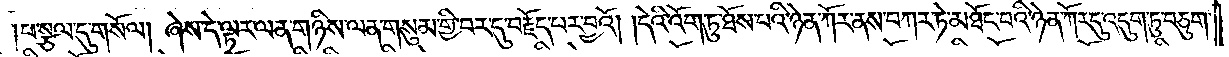པ་སྩལ་དུ་གསོལ། ཞེས་དེ་ལྟར་ལན་གཉིས་ལན་གསུམ་གྱི་བར་དུ་བརྗོད་པར་བྱའོ། །དེའི་འོག་ཏུ་ཐོས་པའི་ཉེན་ཀོར་ནས་བཀར་ཏེ་མཐོང་བའི་ཉེན་ཀོར་དུ་འདུག་ཏུ་བཅུག་
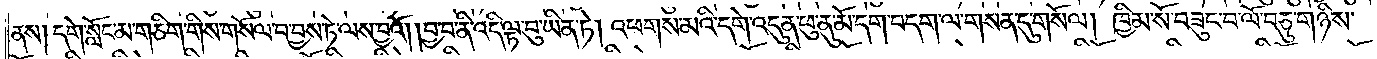ནས༑ དགེ་སློང་མ་གཅིག་གིས་གསོལ་བ་བྱས་ཏེ་ལས་བྱའོ། །བྱ་བ་ནི་འདི་ལྟ་བུ་ཡིན་ཏེ། འཕགས་མའི་དགེ་འདུན་ཕུ་ནུ་མོ་དག་བདག་ལ་གསན་དུ་གསོལ། ཁྱིམ་སོ་བཟུང་བ་ལོ་བཅུ་གཉིས་
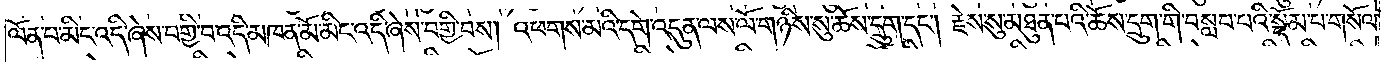ལོན་པ་མིང་འདི་ཞེས་བགྱི་བ་འདི་མཁན་མོ་མིང་འདི་ཞེས་བགྱི་བས། འཕགས་མའི་དགེ་འདུན་ལས་ལོ་གཉིས་སུ་ཆོས་དྲུག་དང༌། རྗེས་སུ་མཐུན་པའི་ཆོས་དྲུག་གི་བསླབ་པའི་སྡོམ་པ་གསོལ་
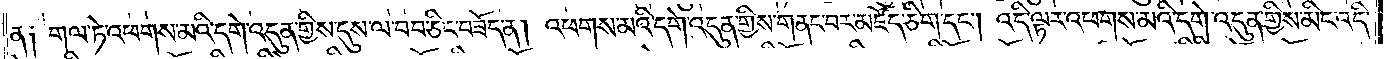ན༑ གལ་ཏེ་འཕགས་མའི་དགེ་འདུན་གྱིས་དུས་ལ་བབ་ཅིང་བཟོད་ན། འཕགས་མའི་དགེ་འདུན་གྱིས་གནང་བར་མཛོད་ཅིག་དང༌། འདི་ལྟར་འཕགས་མའི་དགེ་འདུན་གྱིས་མིང་འདི་
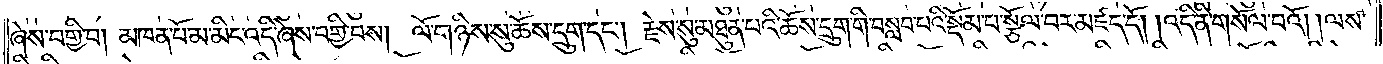ཞེས་བགྱི་བ། མཁན་པོ་མ་མིང་འདི་ཞེས་བགྱི་བས། ལོ་གཉིས་སུ་ཆོས་དྲུག་དང༌། རྗེས་སུ་མཐུན་པའི་ཆོས་དྲུག་གི་བསླབ་པའི་སྡོམ་པ་སྩོལ་བར་མཛད་དོ། །འདི་ནི་གསོལ་བའོ། །ལས་
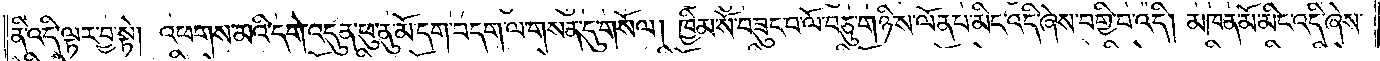ནི་འདི་ལྟར་བྱ་སྟེ། འཕགས་མའི་དགེ་འདུན་ཕུ་ནུ་མོ་དག་བདག་ལ་གསན་དུ་གསོལ། ཁྱིམ་སོ་བཟུང་བ་ལོ་བཅུ་གཉིས་ལོན་པ་མིང་འདི་ཞེས་བགྱི་བ་འདི། མཁན་མོ་མིང་འདི་ཞེས་
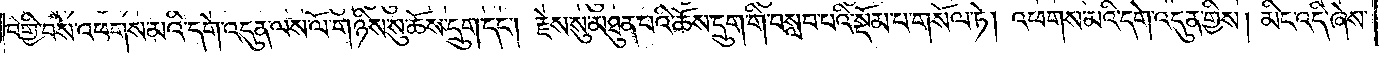བགྱི་བས་འཕགས་མའི་དགེ་འདུན་ལས་ལོ་གཉིས་སུ་ཆོས་དྲུག་དང༌། རྗེས་སུ་མཐུན་པའི་ཆོས་དྲུག་གི་བསླབ་པའི་སྡོམ་པ་གསོལ་ཏེ། འཕགས་མའི་དགེ་འདུན་གྱིས། མིང་འདི་ཞེས་
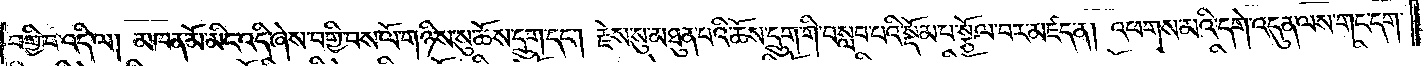བགྱི་བ་འདི་ལ། མཁན་མོ་མིང་འདི་ཞེས་བགྱི་བས་ལོ་གཉིས་སུ་ཆོས་དྲུག་དང༌། རྗེས་སུ་མཐུན་པའི་ཆོས་དྲུག་གི་བསླབ་པའི་སྡོམ་པ་སྩོལ་བར་མཛད་ན། འཕགས་མའི་དགེ་འདུན་ལས་གང་དག་
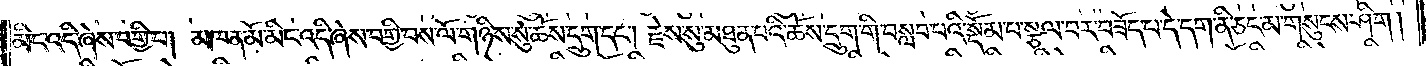མིང་འདི་ཞེས་བགྱི་བ། མཁན་མོ་མིང་འདི་ཞེས་བགྱི་བས་ལོ་གཉིས་སུ་ཆོས་དྲུག་དང༌། རྗེས་སུ་མཐུན་པའི་ཆོས་དྲུག་གི་བསླབ་པའི་སྡོམ་པ་སྩལ་བར་བཟོད་པ་དེ་དག་ནི་ཅང་མ་གསུངས་ཤིག །
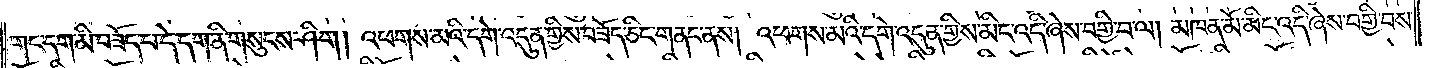གང་དག་མི་བཟོད་པ་དེ་དག་ནི་གསུངས་ཤིག། འཕགས་མའི་དགེ་འདུན་གྱིས་བཟོད་ཅིང་གནང་ནས། འཕགས་མའི་དགེ་འདུན་གྱིས་མིང་འདི་ཞེས་བགྱི་བ་ལ། མཁན་མོ་མིང་འདི་ཞེས་བགྱི་བས་
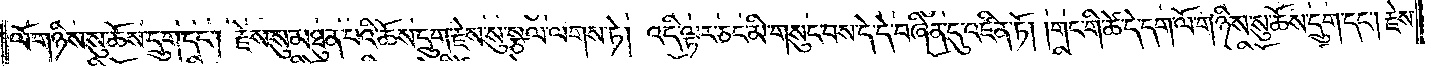ལོ་གཉིས་སུ་ཆོས་དྲུག་དང༌། རྗེས་སུ་མཐུན་པའི་ཆོས་དྲུག་རྗེས་སུ་སྩལ་ལགས་ཏེ། འདི་ལྟར་ཅང་མི་གསུང་བས་དེ་དེ་བཞིན་དུ་འཛིན་ཏོ། །གང་གི་ཚེ་དེ་དག་ལོ་གཉིས་སུ་ཆོས་དྲུག་དང༌། རྗེས་
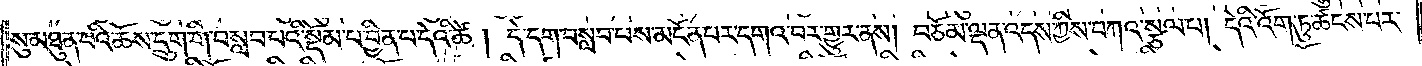སུ་མཐུན་པའི་ཆོས་དྲུག་གི་བསླབ་པའི་སྡོམ་པ་བྱིན་པ་དེའི་ཚེ། དེ་དག་བསླབ་པས་མངོན་པར་དགའ་བར་གྱུར་ནས། བཅོམ་ལྡན་འདས་ཀྱིས་བཀའ་སྩལ་པ། དེའི་འོག་ཏུ་ཚངས་པར་
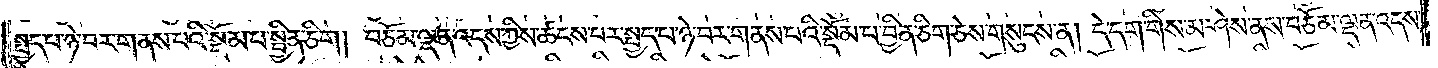སྤྱད་པ་ཉེ་བར་གནས་པའི་སྡོམ་པ་སྦྱིན་ཅིག། བཅོམ་ལྡན་འདས་ཀྱིས་ཚངས་པར་སྤྱད་པ་ཉེ་བར་གནས་པའི་སྡོམ་པ་བྱིན་ཅིག་ཅེས་གསུངས་ན། དེ་དག་གིས་མ་ཤེས་ནས་བཅོམ་ལྡན་འདས་
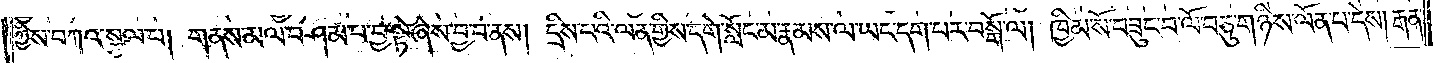ཀྱིས་བཀའ་སྩལ་པ། གནས་མལ་བཤམ་པ་བྱ་སྟེ་ཞེས་བྱ་བ་ནས། དྲིས་པའི་ལན་གྱིས་དགེ་སློང་མ་རྣམས་ལ་ཡང་དག་པར་བསྒོ་ལ། ཁྱིམ་སོ་བཟུང་བ་ལོ་བཅུ་གཉིས་ལོན་པ་དེས། རྒན་
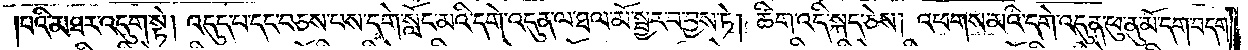པའི་མཐར་འདུག་སྟེ། འདུད་པ་དང་བཅས་པས་དགེ་སློང་མའི་དགེ་འདུན་ལ་ཐལ་མོ་སྦྱར་བ་བྱས་ཏེ། ཚིག་འདི་སྐད་ཅེས། འཕགས་མའི་དགེ་འདུན་ཕུ་ནུ་མོ་དག་བདག་
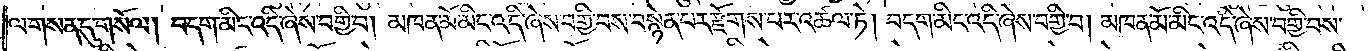ལ་གསན་དུ་གསོལ། བདག་མིང་འདི་ཞེས་བགྱི་བ། མཁན་མོ་མིང་འདི་ཞེས་བགྱི་བས་བསྙེན་པར་རྫོགས་པར་འཚལ་ཏེ། བདག་མིང་འདི་ཞེས་བགྱི་བ། མཁན་མོ་མིང་འདི་ཞེས་བགྱི་བས་
